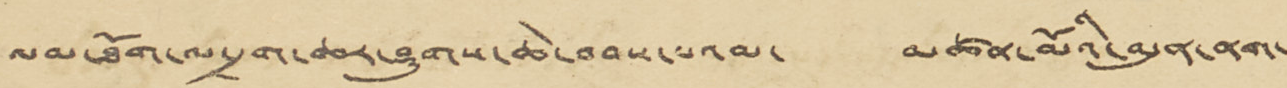ལམ་ཐོག་ལ་དྲག་ཆར་ཤུགས་ཆེ་བབས་པའམ་ མཚན་མོའི་མུན་ནག་
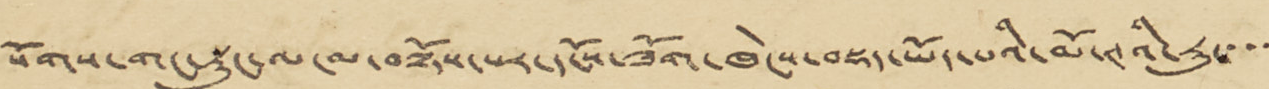སོགས་གང་སྡུང་ལ་ལ་བལྟོས་པར་དངོས་ཟོག་ཁེངས་བསྡད་ཡོད་པའི་མོ་ཊའི་རུ་་་་
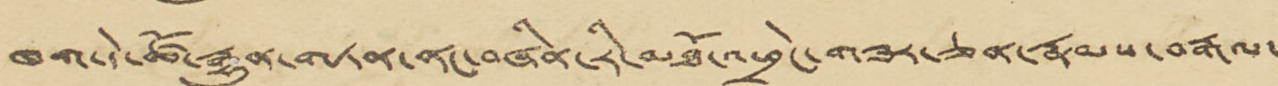ཁག་དེ་ཚོ་རྒྱུན་གཏན་ནང་བཞིན་རི་མཐོ་འཕྲེང་གཟར་ཅན་རྣམས་བརྒལ་
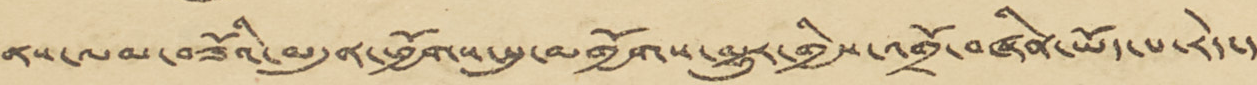ནས་ལམ་བཟོའི་མདུན་ཕྱོགས་སུ་མགྱོགས་མྱུར་གྱིས་འགྲོ་བཞིན་ཡོད་པ་རེད་།
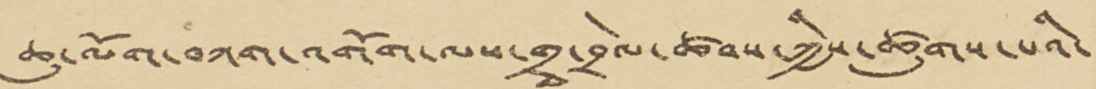ཆུ་ལོག་བཀག་འགོག་ལས་གྲྭ་བྲེལ་ཚབས་ཀྱིས་ཚུགས་པའི་
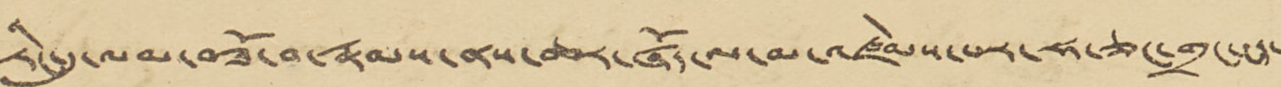རིང་དུ་ལམ་བཟོ་བ་རྣམས་ནས་ཆར་ཞོད་ལ་མ་འཛེམས་པར་ཧ་ཅང་གྲང་ངད་
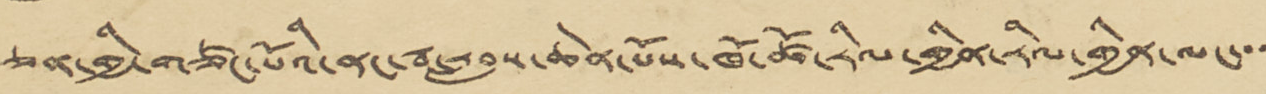ཅན་གྱི་གཙང་པོའི་ནང་རྦ་རླབས་ཆེན་མོས་ཁོ་ཚོ་རིལ་གྱིན་རིལ་གྱིན་ལང་་་
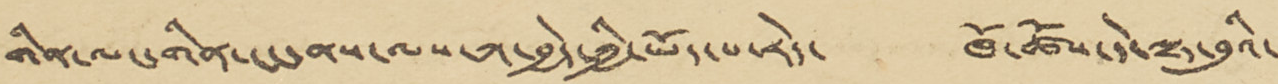གིན་ལང་གིན་ངང་ནས་ལས་ཀ་བྱེད་ཀྱི་ཡོད་པ་རེད་ ཁོ་ཚོས་དེ་ལྟ་བུའི་
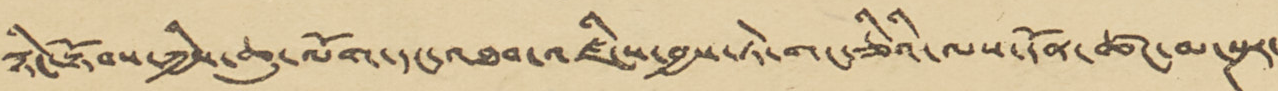སྙིང་སྟོབས་ཀྱིས་ཆུ་ལོག་དང་འཐབ་འཛིངས་བྱས་ཏེ་གང་ཅིའི་ལས་དོན་ཚང་མ་སྔར་
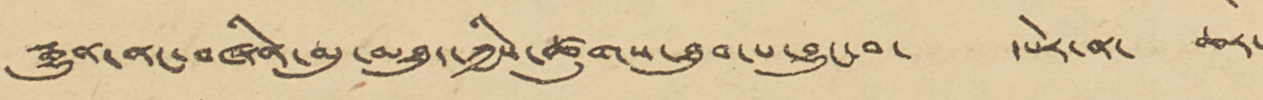རྒྱུན་ནང་བཞིན་མུ་མཐུད་ཀྱིས་ཚུགས་ཐུབ་པ་བྱུང་བ་ དཔེར་ན་ ཆར་
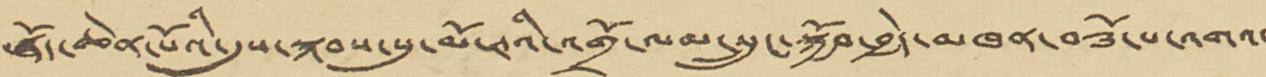ཞོད་ཆེན་པོའི་དུས་སྐབས་སུ་མོ་ཊའི་འགྲོ་ལམ་སྲུང་སྐྱོབ་བྱེད་མཁན་བཟོ་པ་འགའ་
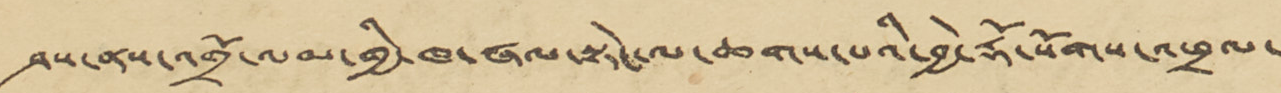ཤས་ནས་འགྲོ་ལམ་གྱི་ཁ་ཞལ་སྟེང་ལ་ཆགས་པའི་བྱེ་རྡོ་སོགས་འཕྲལ་
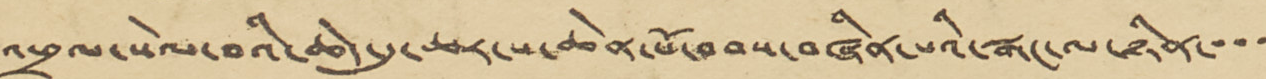འཕྲལ་སེལ་བའི་ཆེད་དུ་ཆར་པ་ཆེན་པོ་བབས་བཞིན་པའི་སྒང་ལ་ཉིན་་་་
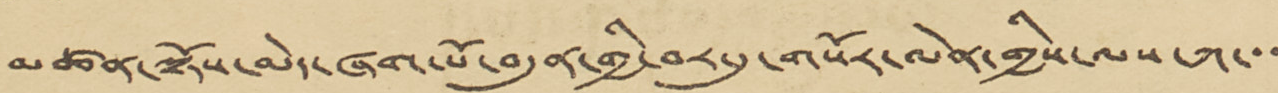མཚན་སྡོས་མེད་ཞག་པོ་བདུན་གཡི་བར་དུ་གསོར་ལེན་གྱིས་ལས་ཀ་་་
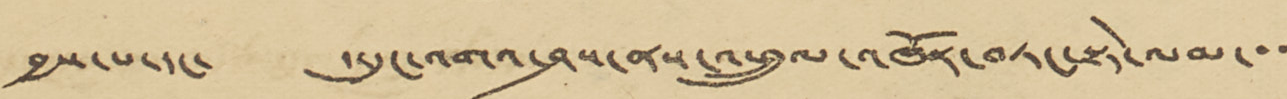བྱས་པ་དང་ ད་དུང་འགའ་ཤས་ནས་འཕྲུལ་འཁོར་བཏང་སྟེ་ལམ་་་
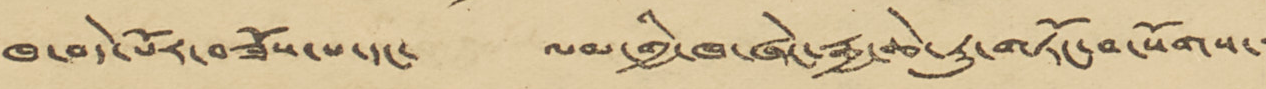ཁ་བདེ་པོར་བཟོས་པ་དང་ ལམ་གྱི་ཁ་ཞེང་རྒྱ་ཆེ་རུ་གཏོང་བ་སོགས་་
